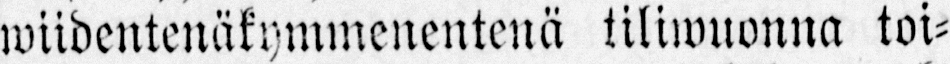wiidentenäkymmenentenä tiliwuonna toi-
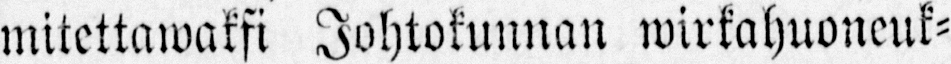mitettawaksi Johtokunnan wirkahuoneuk-
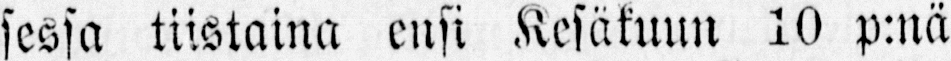sessa tiistaina ensi Kesäkunn 10 p:nä
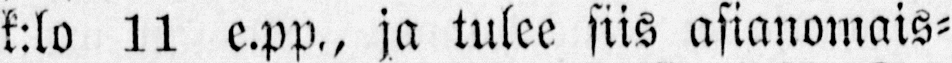k:lo 11 e.pp., ja tulee siis asianomais-
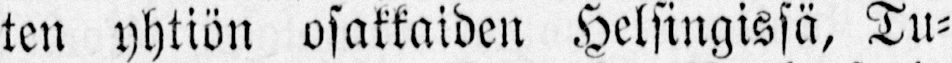ten yhtiön osakkaiden Helsingissä, Tu-
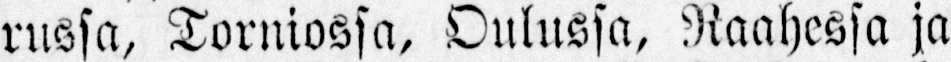russa, Torniossa, Oulussa, Raahessa ja
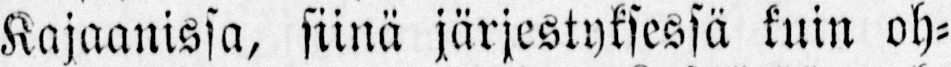Kajaanissa, siinä järjestyksessä kuin oh-
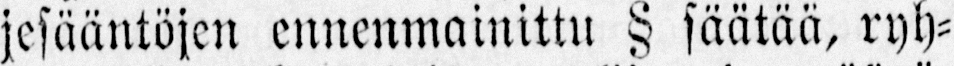jesääntöjen ennenmainittu § säätää, ryh-
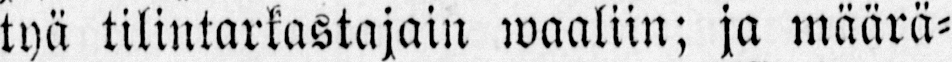tyä tilintarkastajain waaliin; ja määrä-
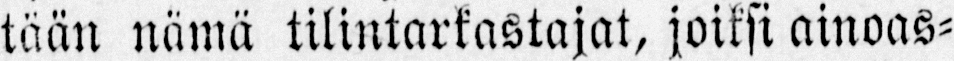tään nämä tilintarkastajat, joiksi ainoas-
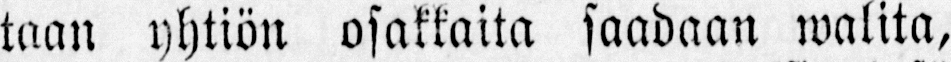taan yhtiön osakkaita saadaan walita,
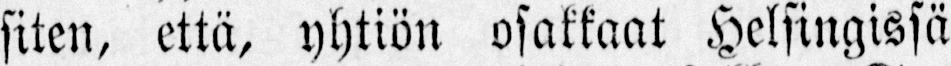siten, että, yhtiön osakkaat Helsingissä
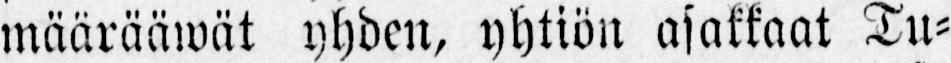määrääwät yhden, yhtiön osakkaat Tu-
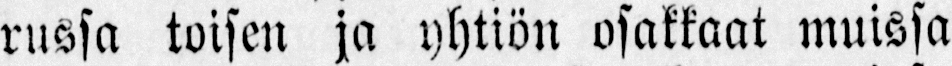russa toisen ja yhtiön osakkaat muissa
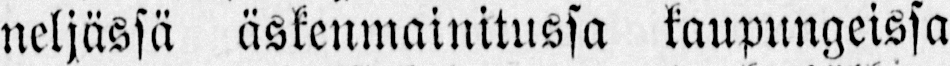neljässä äskenmainitussa kaupungeissa
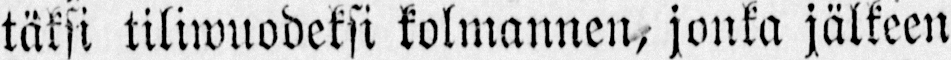täksi tiliwuodeksi kolmannen, jonka jälkeen
